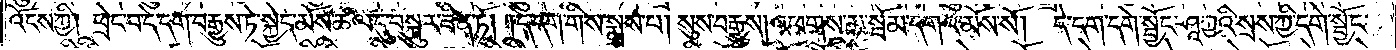འོངས་ཀྱི། ཕྲེང་བ་དེ་དག་བརྒྱུས་ཏེ་སྐྱེད་མོས་ཚལ་དུ་བསྐུར་ཟིན་ཏོ། །དེ་དག་གིས་སྨྲས་པ། སུས་བརྒྱུས། འཕགས་མ་སྦོམ་དགའ་མོས་སོ། དེ་དག་དགེ་སྦྱོང་ཤཱཀྱའི་སྲས་ཀྱི་དགེ་སྦྱོང་
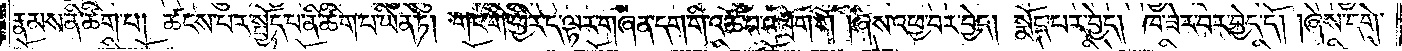རྣམས་ནི་ཚིག་པ། ཚངས་པར་སྤྱོད་པ་ནི་ཚིག་པ་ཡིན་ཏེ། གང་གི་ཕྱིར་ད་ལྟར་གཞན་དག་གི་འཚོ་བ་འཕྲོག་གོ །ཞེས་འཕྱ་བར་བྱེད། སྨོད་པར་བྱེད། ཁ་ཟེར་བར་བྱེད་དོ། །ཞེས་དགེ་
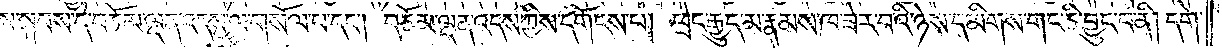ས་སྐབས་དེ་བཅོམ་ལྡན་འདས་ལ་གསོལ་པ་དང༌། བཅོམ་ལྡན་འདས་ཀྱིས་དགོངས་པ། ཕྲེང་རྒྱུད་མ་རྣམས་ཁ་ཟེར་བའི་ཉེས་དམིགས་གང་ཅི་བྱུང་བ་ནི། དགེ་
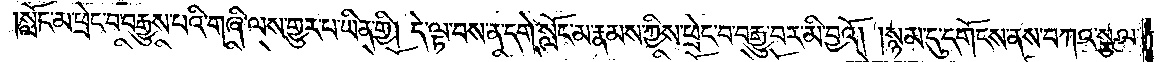སློང་མ་ཕྲེང་བ་བརྒྱུས་པའི་གཞི་ལས་གྱུར་པ་ཡིན་གྱི། དེ་ལྟ་བས་ན་དགེ་སློང་མ་རྣམས་ཀྱིས་ཕྲེང་བ་བརྒྱུ་བར་མི་བྱའོ། །སྙམ་དུ་དགོངས་ནས་བཀའ་སྩལ་
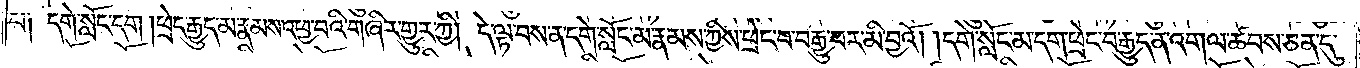པ། དགེ་སློང་དག །ཕྲེང་རྒྱུད་མ་རྣམས་འཕྱ་བའི་གཞིར་གྱུར་ཀྱི། དེ་ལྟ་བས་ན་དགེ་སློང་མ་རྣམས་ཀྱིས་ཕྲེང་བ་བརྒྱུ་བར་མི་བྱའོ། །དགེ་སློང་མ་དག་ཕྲེང་བརྒྱུད་ན་འགལ་ཚབས་ཅན་དུ་
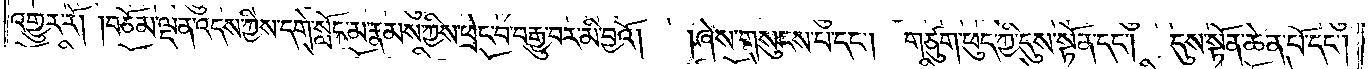འགྱུར་རོ། །བཅོམ་ལྡན་འདས་ཀྱིས་དགེ་སློང་མ་རྣམས་ཀྱིས་ཕྲེང་བ་བརྒྱུ་བར་མི་བྱའོ། །ཞེས་གསུངས་པ་དང༌། གཙུག་ཕུད་ཀྱི་དུས་སྟོན་དང༌། དུས་སྟོན་ཆེན་པོ་དང༌།
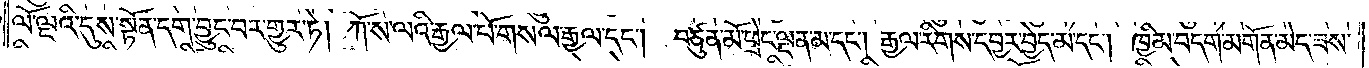ལོ་ལྔའི་དུས་སྟོན་དག་བྱུང་བར་གྱུར་ཏེ། ཀོ་ས་ལའི་རྒྱལ་པོ་གསལ་རྒྱལ་དང༌། བཙུན་མོ་ཕྲེང་ལྡན་མ་དང༌། རྒྱལ་རིགས་དབྱར་བྱེད་མ་དང༌། ཁྱིམ་བདག་མགོན་མེད་ཟས་
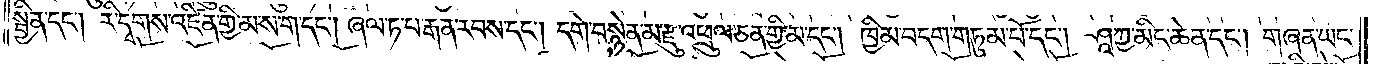སྦྱིན་དང༌། རི་དྭགས་འཛིན་གྱི་མ་ས་ག་དང༌། ཞལ་ཏ་པ་རྒན་རབས་དང༌། དགེ་བསྙེན་མ་རྫུ་འཕྲུལ་ཅན་གྱི་མ་དང༌། ཁྱིམ་བདག་གཏུམ་པོ་དང༌། ཤཱཀྱ་མིང་ཆེན་དང༌། གཞན་ཡང་
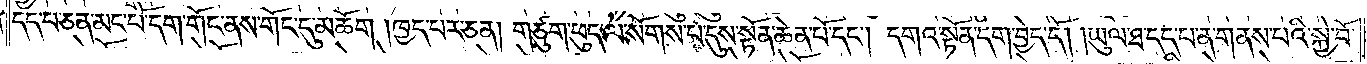དད་པ་ཅན་མང་པོ་དག་གོང་ནས་གོང་དུ་མཆོག །ཁྱད་པར་ཅན། གཙུག་ཕུད་ལ་སོགས་པ་དུས་སྟོན་ཆེན་པོ་དང༌། དགའ་སྟོན་དག་བྱེད་དོ། །ཡུལ་ཐ་དད་པ་ན་གནས་པའི་སྐྱེ་བོ་
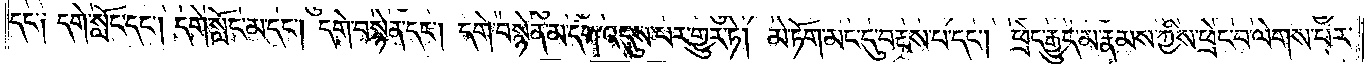དང༌། དགེ་སློང་དང༌། དགེ་སློང་མ་དང༌། དགེ་བསྙེན་དང༌། དགེ་བསྙེན་མ་དག་འདུས་པར་གྱུར་ཏེ། མེ་ཏོག་མང་དུ་བརྔས་པ་དང༌། ཕྲེང་རྒྱུད་མ་རྣམས་ཀྱིས་ཕྲེང་བ་ལེགས་པར་
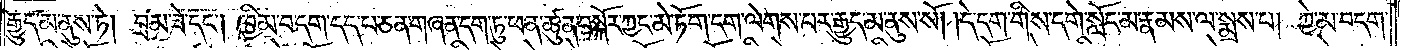རྒྱུད་མ་ནུས་ཏེ། བྲམ་ཟེ་དང༌། ཁྱིམ་བདག་དད་པ་ཅན་གཞན་དག་ཏུ་ཕན་ཚུན་བསྐོར་ཀྱང་མེ་ཏོག་དག་ལེགས་པར་རྒྱུད་མ་ནུས་སོ། །དེ་དག་གིས་དགེ་སློང་མ་རྣམས་ལ་སྨྲས་པ། ཀྱེ་མ་བདག་
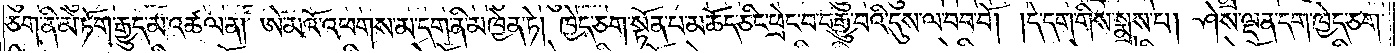ཅག་ནི་མེ་ཏོག་རྒྱུད་མ་འཚལ་ན། ཨེ་མའོ་འཕགས་མ་དག་ནི་མཁྱེན་ཏེ། ཁྱེད་ཅག་སྟོན་པ་མཆོད་ཅིང་ཕྲེང་བ་བརྒྱུ་བའི་དུས་ལ་བབ་བོ། །དེ་དག་གིས་སྨྲས་པ། ཤེས་ལྡན་དག་ཁྱེད་ཅག་
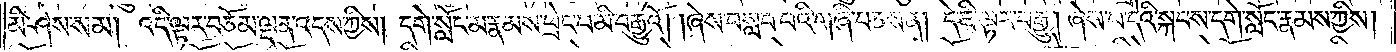མི་ཤེས་སམ། འདི་ལྟར་བཅོམ་ལྡན་འདས་ཀྱིས། དགེ་སློང་མ་རྣམས་ཕྲེང་བ་མི་བརྒྱུའོ། །ཞེས་བསླབ་པའི་གཞི་བཅས་ན། དེ་ཇི་ལྟར་བརྒྱུ། ཞེས་པ་དེའི་སྐབས་དགེ་སློང་རྣམས་ཀྱིས།
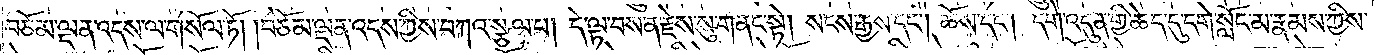བཅོམ་ལྡན་འདས་ལ་གསོལ་ཏོ། །བཅོམ་ལྡན་འདས་ཀྱིས་བཀའ་སྩལ་པ། དེ་ལྟ་བས་ན་རྗེས་སུ་གནང་སྟེ། སངས་རྒྱས་དང༌། ཆོས་དང༌། དགེ་འདུན་གྱི་ཆེད་དུ་དགེ་སློང་མ་རྣམས་ཀྱིས་
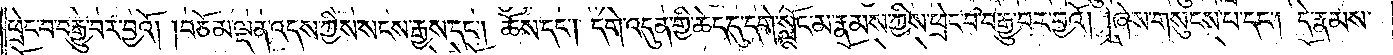ཕྲེང་བ་བརྒྱུ་བར་བྱའོ། །བཅོམ་ལྡན་འདས་ཀྱིས་སངས་རྒྱས་དང༌། ཆོས་དང༌། དགེ་འདུན་གྱི་ཆེད་དུ་དགེ་སློང་མ་རྣམས་ཀྱིས་ཕྲེང་བ་བརྒྱུ་བར་བྱའོ། །ཞེས་གསུངས་པ་དང༌། དེ་རྣམས་
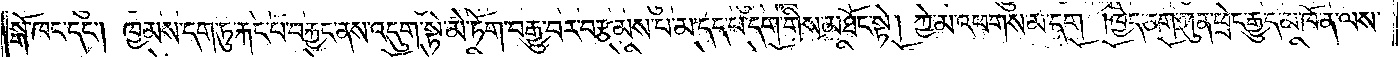སྒོ་ཁང་དང༌། ཁྱམས་དག་ཏུ་རྐང་པ་བརྐྱང་ནས་འདུག་སྟེ་མེ་ཏོག་བརྒྱུ་བར་བརྩམས་པ་མ་དད་པ་དག་གིས་མཐོང་སྟེ། ཀྱེ་མ་འཕགས་མ་དག །ཁྱེད་ཅག་ཀུན་ཕྲེང་རྒྱུད་མ་ཁོ་ན་ལས་
